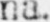na.
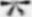*
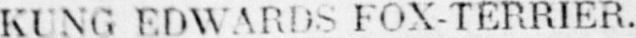KUNG. EDWARDS FOX-TERRIER.
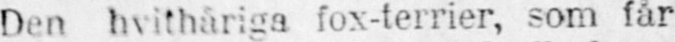Den hvithåriga fox-terrier, som får
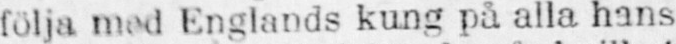följa med Englands kung på alla hans
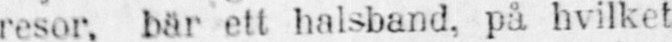resor, bär ett halsband, på hvilket
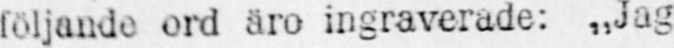följande ord äro ingraverade: „Jag
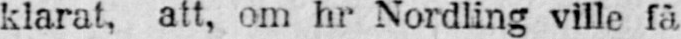klarat, att, om hr Nordling ville få
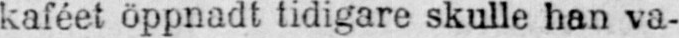kaféet öppnadt tidigare skulle han va-
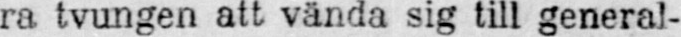ra tvungen att vända sig till general-
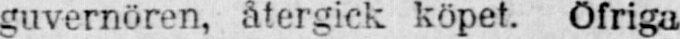guvernören, återgick köpet. Öfriga
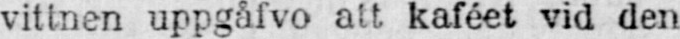vittnen uppgåfvo att kaféet vid den
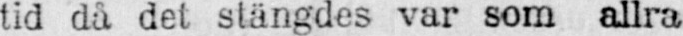tid då det stängdes var som allra
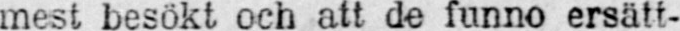mest besökt och att de funno ersätt-
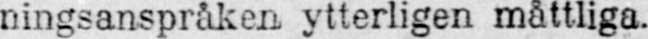ningsanspråken, ytterligen måttliga.
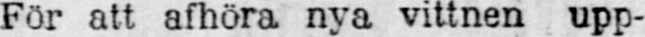För att afhöra nya vittnen upp-
